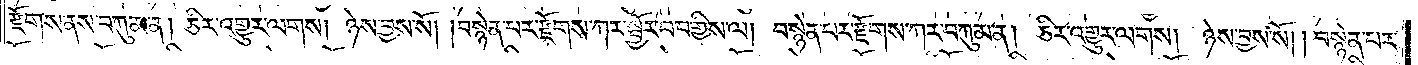རྫོགས་ནས་བཀུམ་ན། ཅིར་འགྱུར་ལགས། ཉེས་བྱས་སོ། །བསྙེན་པར་རྫོགས་ཀར་སྦྱོར་བ་བགྱིས་ལ། བསྙེན་པར་རྫོགས་ཀར་བཀུམ་ན། ཅིར་འགྱུར་ལགས། ཉེས་བྱས་སོ། །བསྙེན་པར་
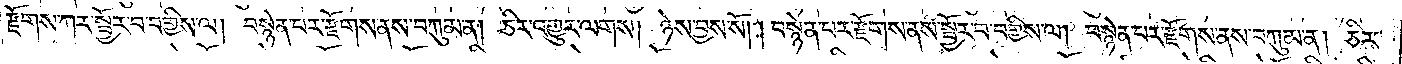རྫོགས་ཀར་སྦྱོར་བ་བགྱིས་ལ། བསྙེན་པར་རྫོགས་ནས་བཀུམ་ན། ཅིར་འགྱུར་ལགས། ཉེས་བྱས་སོ། །བསྙེན་པར་རྫོགས་ནས་སྦྱོར་བ་བགྱིས་ལ། བསྙེན་པར་རྫོགས་ནས་བཀུམ་ན། ཅིར་
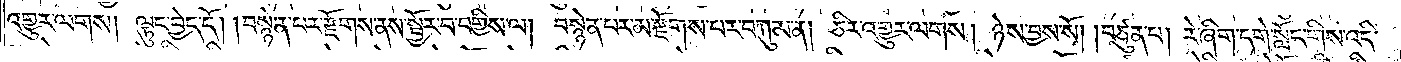འགྱུར་ལགས། ལྟུང་བྱེད་དོ། །བསྙེན་པར་རྫོགས་ནས་སྦྱོར་བ་བགྱིས་ལ། བསྙེན་པར་མ་རྫོགས་པར་བཀུམ་ན། ཅིར་འགྱུར་ལགས། ཉེས་བྱས་སོ། །བཙུན་པ། རེ་ཞིག་དགེ་སློང་གིས་འདི་
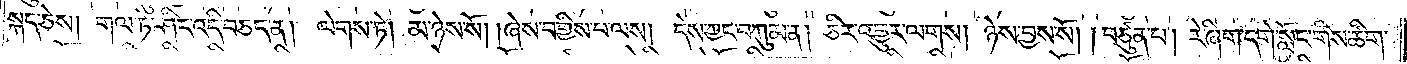སྐད་ཅེས། གལ་ཏེ་ཤིང་འདི་བཅད་ན། ལེགས་ཏེ། མ་ཉེས་སོ། །ཞེས་བགྱིས་པ་ལས། དེས་ཀྱང་བཀུམ་ན། ཅིར་འགྱུར་ལགས། ཉེས་བྱས་སོ། །བཙུན་པ། རེ་ཞིག་དགེ་སློང་གིས་ཚིག་
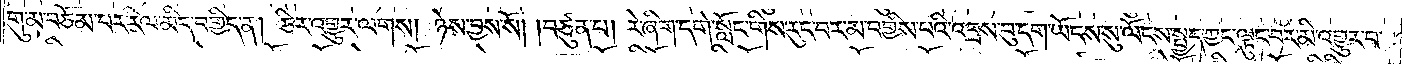གུ་མ་བཅོམ་པར་རིལ་མིད་བགྱིད་ན། ཅིར་འགྱུར་ལགས། ཉེས་བྱས་སོ། །བཙུན་པ། རེ་ཞིག་དགེ་སློང་གིས་རུང་བར་མ་བགྱིས་པའི་འབྲས་བུ་དག་ཡོངས་སུ་ལོངས་སྤྱད་ཀྱང་ལྟུང་བར་མི་འགྱུར་བ་
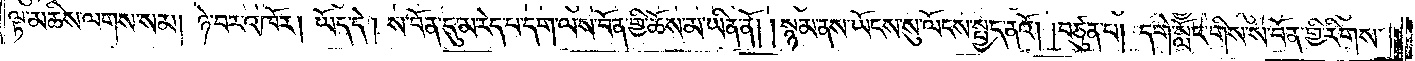ལྟ་མཆིས་ལགས་སམ། ཉེ་བར་འཁོར། ཡོད་དེ། ས་བོན་དུ་མ་རེད་པ་དག་ལ་ས་བོན་གྱི་ཆོས་མ་ཡིན་ནོ། །སྙམ་ནས་ཡོངས་སུ་ལོངས་སྤྱད་ནའོ། །བཙུན་པ། དགེ་སློང་གིས་ས་བོན་གྱི་རིགས་
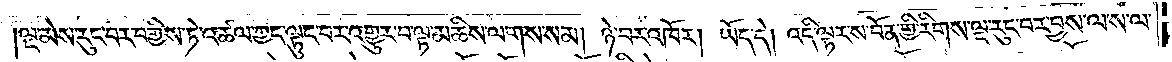ལྔ་མེས་རུང་བར་བགྱིས་ཏེ་འཚལ་ཀྱང་ལྟུང་བར་འགྱུར་བ་ལྟ་མཆིས་ལགས་སམ། ཉེ་བར་འཁོར། ཡོད་དེ། འདི་ལྟར་ས་བོན་གྱི་རིགས་ལྔ་རུང་བར་བྱས་ལ་ས་ལ་
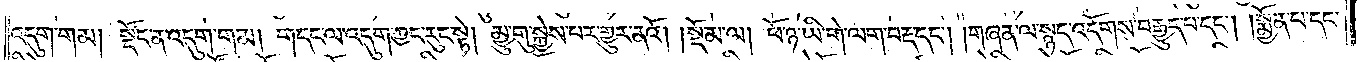འདུག་གམ། སྡོང་ན་འདུག་གམ། གདང་ལ་འདུག་ཀྱང་རུང་སྟེ། མྱུ་གུ་སྐྱེས་པར་གྱུར་ནའོ། །སྡོམ་ལ། ཕོ་ཉ་ཡི་གེ་ལག་བརྡ་དང༌། །གཞན་ལ་སྙད་འདོགས་བརྒྱུད་པ་དང༌། །སྨྱོན་པ་དང་
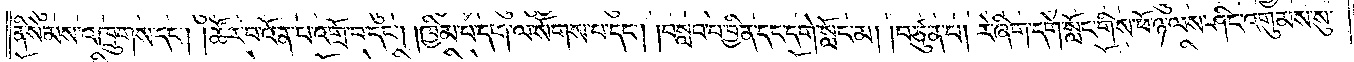ནི་སེམས་འཁྲུགས་དང༌། །ཚོར་བ་འོན་པ་འགྲོ་བ་དང༌། །ཁྱིམ་བདག་ལ་སོགས་པ་དང༌། །བསླབ་པ་བྱིན་དང་དགེ་སློང་མ། །བཙུན་པ། རེ་ཞིག་དགེ་སློང་གིས་ཕོ་ཉ་ལས་ཤིང་འགུམས་སུ་
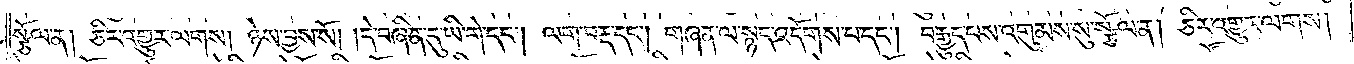སྩོལ་ན། ཅིར་འགྱུར་ལགས། ཉེས་བྱས་སོ། །དེ་བཞིན་དུ་ཡི་གེ་དང༌། ལག་བརྡ་དང༌། གཞན་ལ་སྙད་འདོགས་པ་དང༌། བརྒྱུད་པས་འགུམས་སུ་སྩོལ་ན། ཅིར་འགྱུར་ལགས།
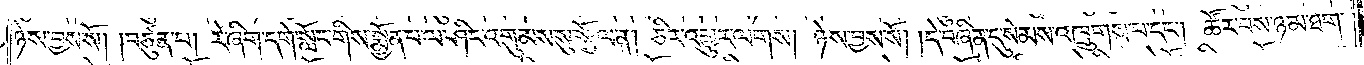ཉེས་བྱས་སོ། །བཙུན་པ། རེ་ཞིག་དགེ་སློང་གིས་སྨྱོན་པ་ལ་ཤིང་འགུམས་སུ་སྩོལ་ན། ཅིར་འགྱུར་ལགས། ཉེས་བྱས་སོ། །དེ་བཞིན་དུ་སེམས་འཁྲུགས་པ་དང༌། ཚོར་བས་ཉམ་ཐག་
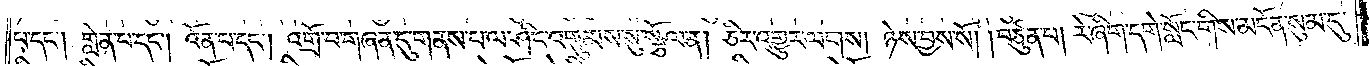པ་དང༌། གླེན་པ་དང༌། འོན་པ་དང༌། འགྲོ་བ་གཞན་དུ་གནས་པ་ལ་ཤིང་འགུམས་སུ་སྩོལ་ན། ཅིར་འགྱུར་ལགས། ཉེས་བྱས་སོ། །བཙུན་པ། རེ་ཞིག་དགེ་སློང་གིས་མངོན་སུམ་དུ་
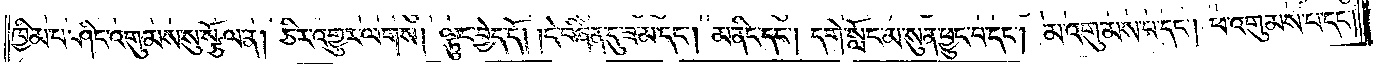ཁྱིམ་པ་ཤིང་འགུམས་སུ་སྩོལ་ན། ཅིར་འགྱུར་ལགས། ལྟུང་བྱེད་དོ། །དེ་བཞིན་དུ་ཟ་མ་དང༌། མ་ནིང་དང༌། དགེ་སློང་མ་སུན་ཕྱུང་བ་དང༌། མ་འགུམས་པ་དང༌། ཕ་འགུམས་པ་དང༌།
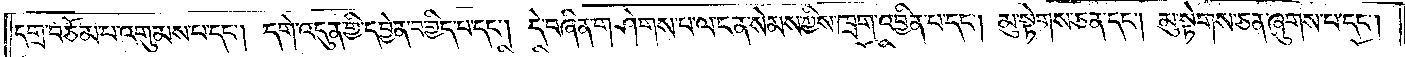དགྲ་བཅོམ་པ་འགུམས་པ་དང༌། དགེ་འདུན་གྱི་དབྱེན་བགྱིད་པ་དང༌། དེ་བཞིན་གཤེགས་པ་ལ་ངན་སེམས་ཀྱིས་ཁྲག་འབྱིན་པ་དང༌། མུ་སྟེགས་ཅན་དང༌། མུ་སྟེགས་ཅན་ཞུགས་པ་དང༌།
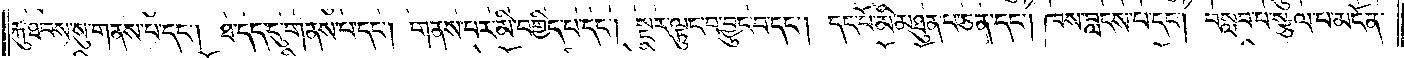རྐུ་ཐབས་སུ་གནས་པ་དང༌། ཐ་དད་དུ་གནས་པ་དང༌། གནས་པར་མི་བགྱིད་པ་དང༌། སྔར་ལྟུང་བ་བྱུང་བ་དང༌། དང་པོ་མི་མཐུན་པ་ཅན་དང༌། ཁས་བླངས་པ་དང༌། བསླབ་པ་སྩལ་པ་མངོན་
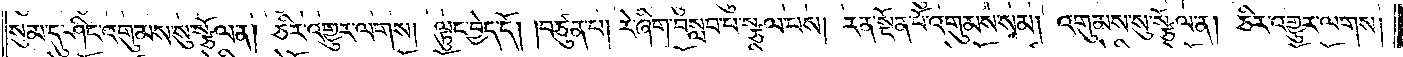སུམ་དུ་ཤིང་འགུམས་སུ་སྩོལ་ན། ཅིར་འགྱུར་ལགས། ལྟུང་བྱེད་དོ། །བཙུན་པ། རེ་ཞིག་བསླབ་པ་སྩལ་པས། རན་སྔོན་པོ་འགུམས་སམ། འགུམས་སུ་སྩོལ་ན། ཅིར་འགྱུར་ལགས།
